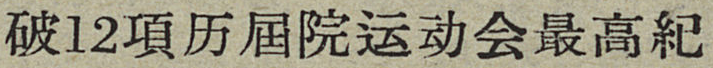破12項历屆员运动会最高紀
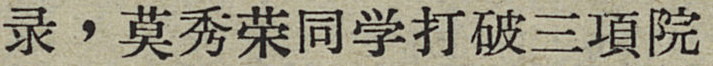录，莫秀荣同学打破三項院
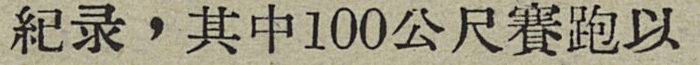紀录，其中100公尺賽跑以
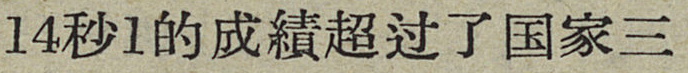14秒1的成績超过了国家三
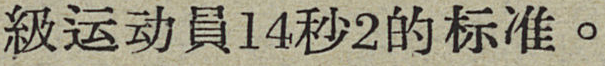級运动員14秒2的标准。
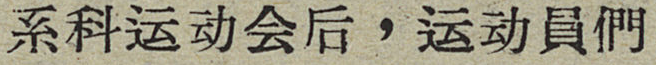系科运动会后，运动員們
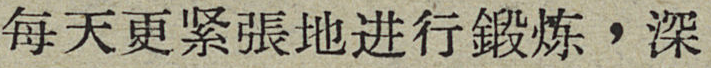每天更紧張地进行鍛炼，深
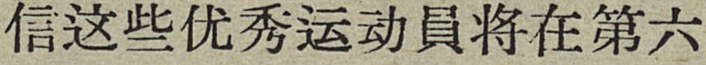信这些优秀运动員将在第六
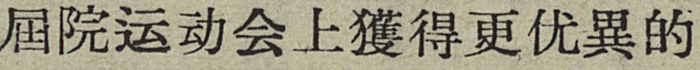屆院运动会上獲得更优異的
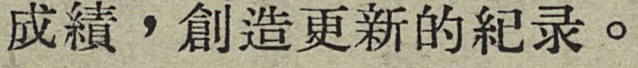成績，創造更新的紀录。
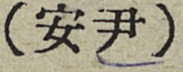（安尹）
